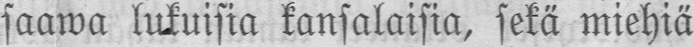saawa lukuisia kansalaisia, sekä miehiä
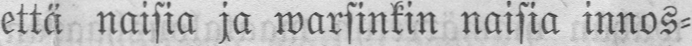että naisia ja warsinkin naisia innos-
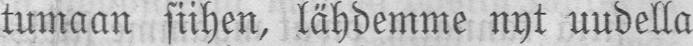tumaan siihen, lähdemme nyt uudella
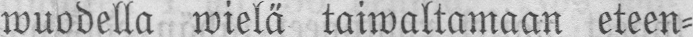wuodella wielä taiwaltamaan eteen-
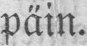päin.
